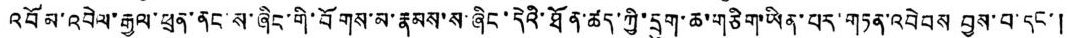འབོམ་འབེལ་རྒྱལ་ཕྲན་ནང་ས་ཞིང་གི་བོགས་མ་རྣམས་ས་ཞིང་དེའི་ཐོན་ཚད་ཀྱི་དྲུག་ཆ་གཅིག་ཡིན་པར་གཏན་འབེབས བྱས་པ་དང་།
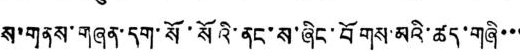ས་གནས་གཞན་དག་སོ་སོའི་ནང་ས་ཞིང་བོགས་མའི་ཚད་གཞི་་་
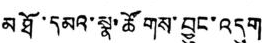མཐོ་དམའ་སྣ་ཚོགས་བྱུང་འདུག
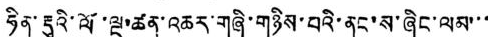ཧིན་རྡུའི་ལོ་ལྔ་ཚན་འཆར་གཞི་གཉིས་པའི་ནང་ས་ཞིང་ལས་་་
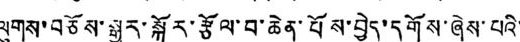ལུགས་བཅོས་སྒྱུར་སྐོར་རྩོལ་བ་ཆེན་པོས་བྱེད་དགོས་ཞེས་པའི་
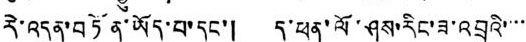རེ་འདུན་བཏོན་ཡོད་པ་དང་། ད་ཕན་ལོ་ཤས་རིང་ཟ་འབྲུའི་་་་
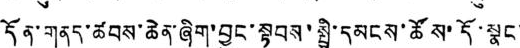དོ་གནད་ཚབས་ཆེན་ཞིག་བྱུང་སྟབས་སྤྱི་དམངས་ཚོས་དོ་སྣང་
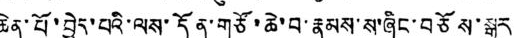ཆེན་པོ་བྱེད་པའི་ལས་དོན་གཙོ་ཆེ་བ་རྣམས་ས་ཞིང་བཅོས་སྒྱུར་
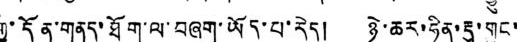གྱི་དོན་གནད་ཐོག་ལ་བཞག་ཡོད་པ་རེད། ཉེ་ཆར་ཧིན་རྡུ་གུང་
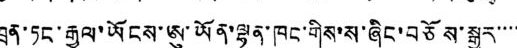ཁྲན་ཏང་རྒྱལ་ཡོངས་ཨུ་ཡོན་ལྷན་ཁང་གིས་ས་ཞིང་བཅོས་སྒྱུར་་་་
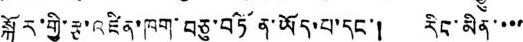སྐོར་གྱི་རྩ་འཛིན་ཁག་བཅུ་བཏོན་ཡོད་པ་དང་། རིང་མིན་་་་
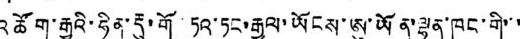འཚོག་རྒྱུའི་ཧིན་རྡུ་གོ་ཏའ་ཏང་རྒྱལ་ཡོངས་ཨུ་ཡོན་ལྷན་ཁང་གི་་་
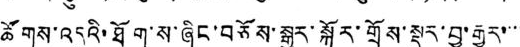ཚོགས་འདུའི་ཐོག་ས་ཞིང་བཅོས་སྒྱུར་སྐོར་གྲོས་སྡུར་བྱ་རྒྱུར་་་་
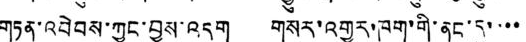གཏན་འབེབས་ཀྱང་བྱས་འདུག གསར་འགྱུར་ཁག་གི་ནང་དུ་་་་
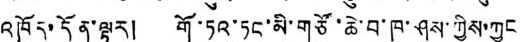འཁོད་དོན་ལྟར། གོ་ཏའ་ཏང་མི་གཙོ་ཆེ་བ་ཁ་ཤས་ཀྱིས་ཀྱང་
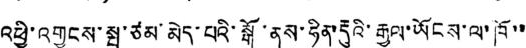འཕྱི་འགྱངས་སྤུ་ཙམ་མེད་པའི་སྒོ་ནས་ཧིན་རྡུའི་རྒྱལ་ཡོངས་ལ་ཁོ་་
